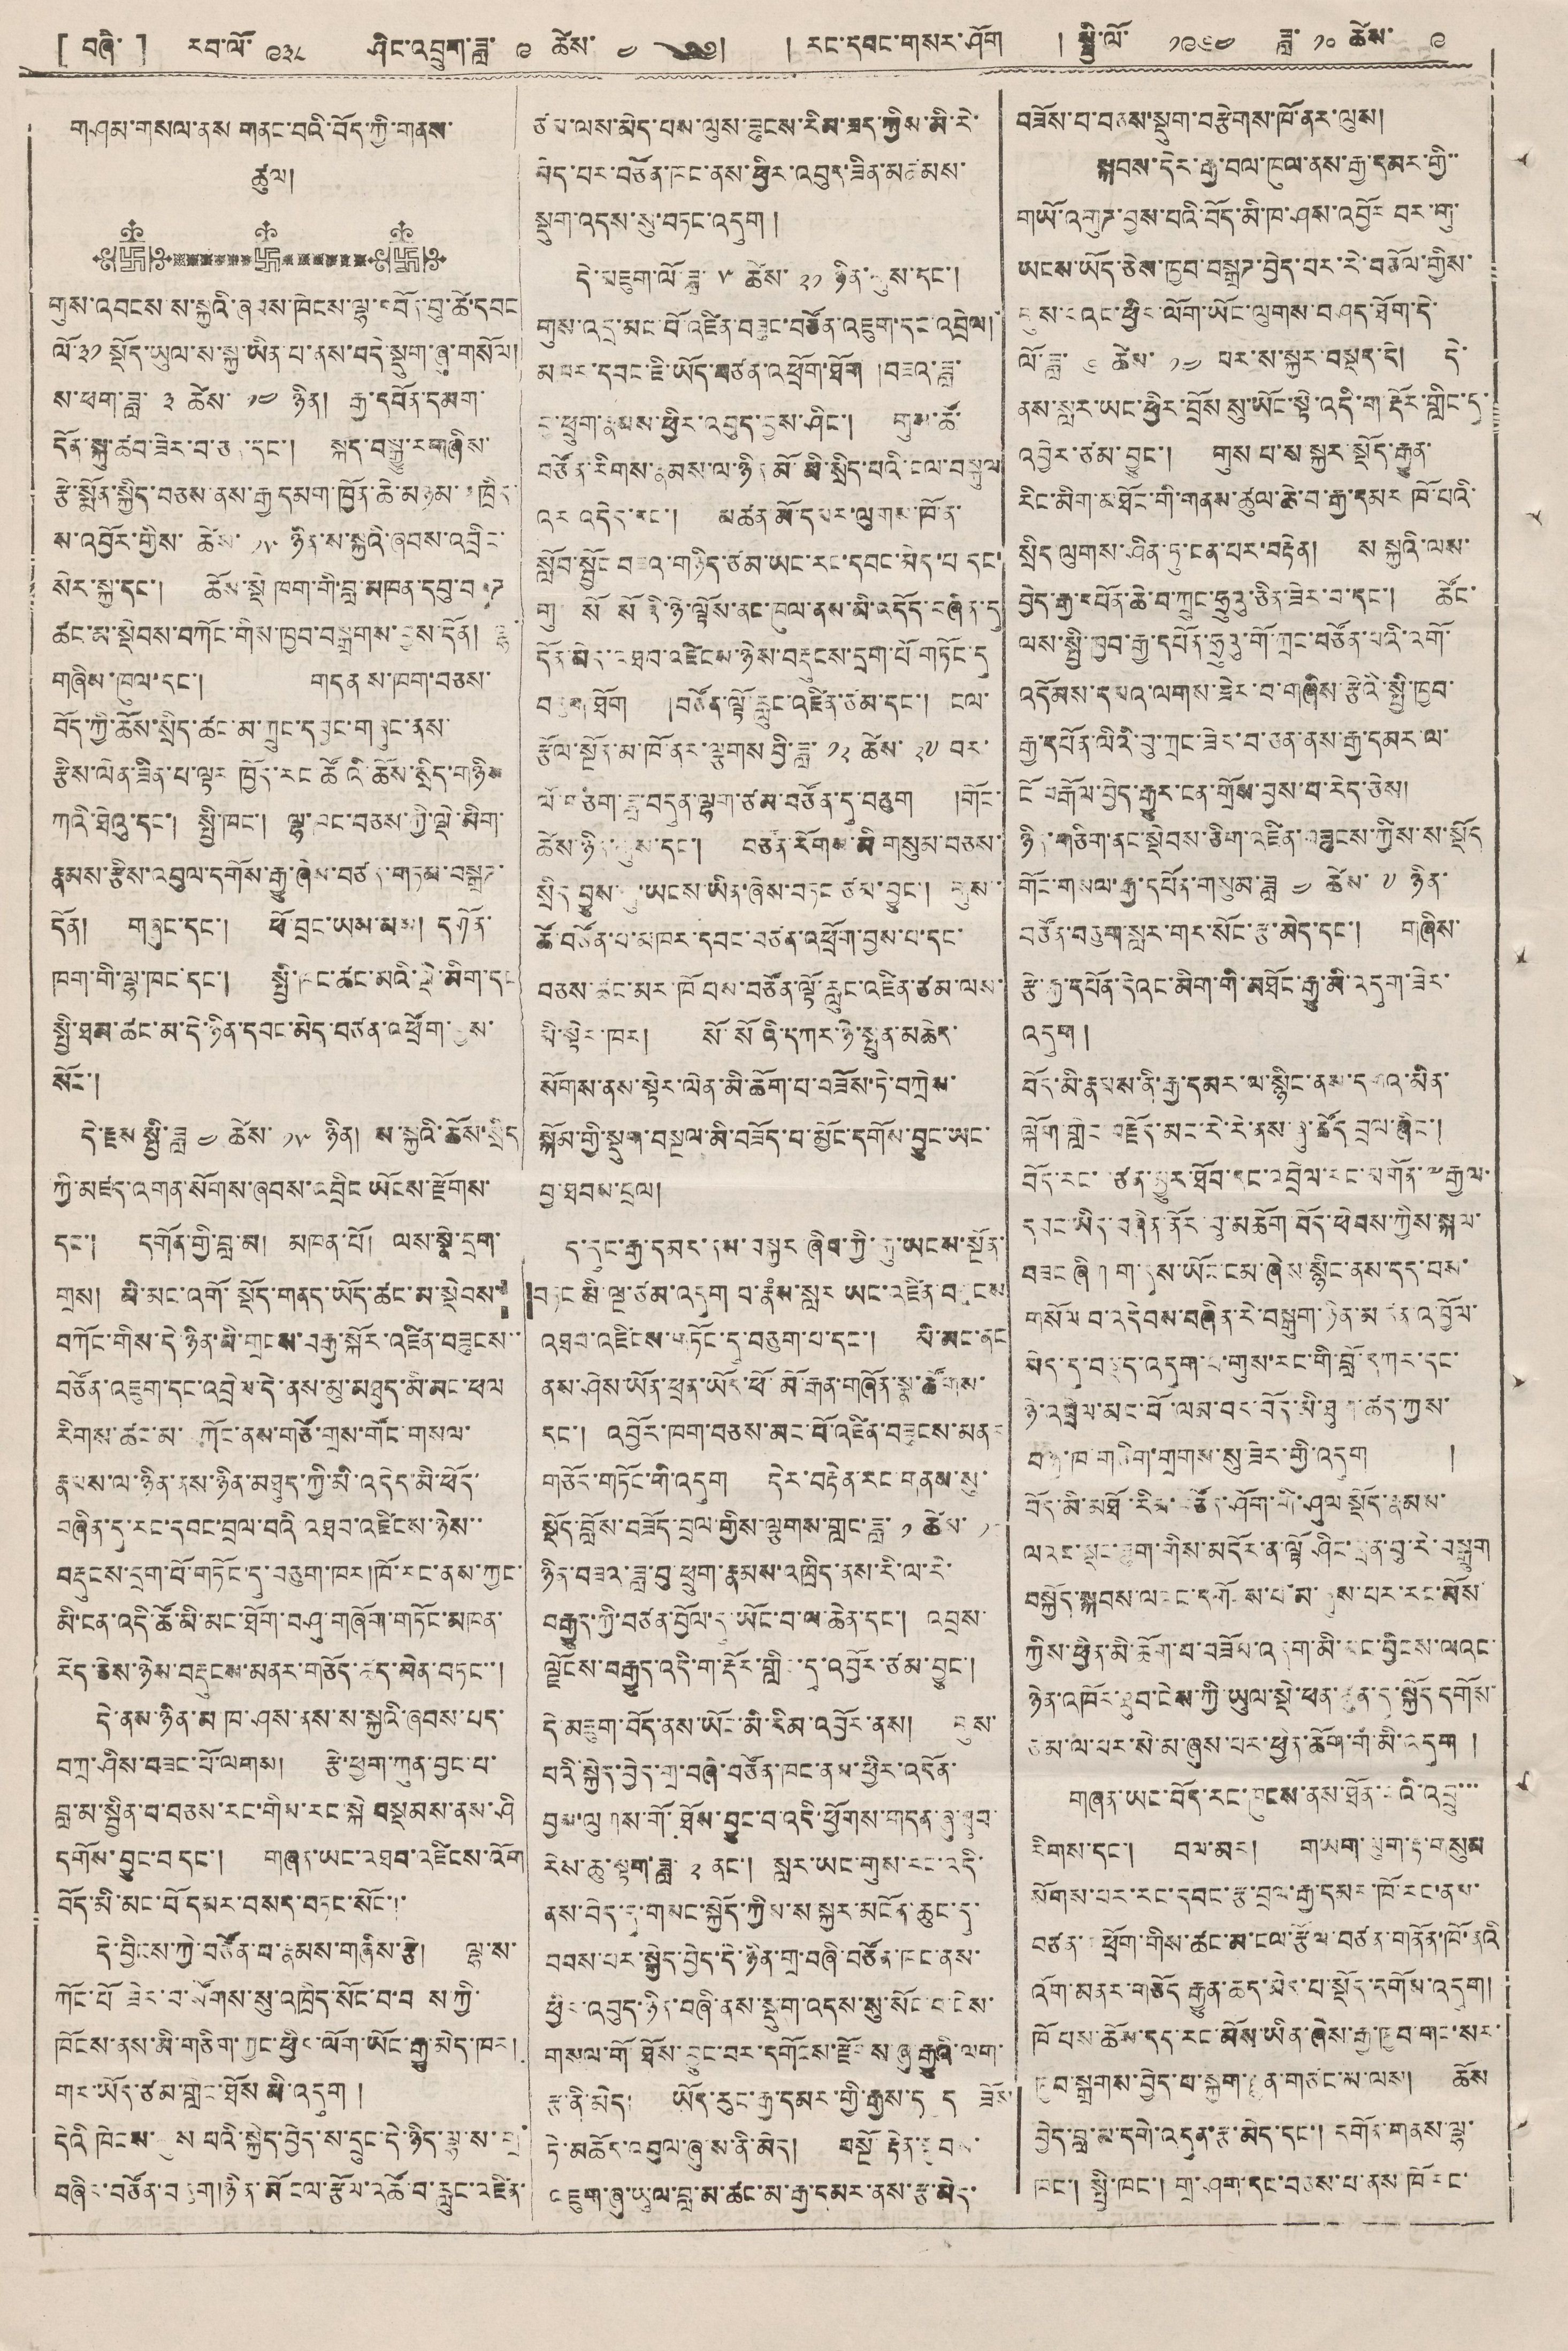[ བཞི་ ] རབ་ལོ་ ༩༣༨ ཤིང་འབྲུག་ཟླ་ ༩ ཚེས་ ༤ ༄༅། ། རང་དབང་གསར་ཤོག །སྤྱི་ལོ་ ༡༩༦༤ ཟླ་ ༡༠ ཚེས་ ༩
གཤམ་གསལ་ནས གནང་བའི་བོད་ཀྱི་གནས་
ཚུལ།
གུས་འབངས ས་སྐྱའི་ཞབས་ཁེངས་ལྷ་བོད་བུ་ཚེ་དབང
ལོ་༣༡སྡོད་ཡུལ་ས་སྐྱ་ཡིན་པ་ནས་བདེ་སྡུག་ཞུ་གསོལ།
ས་ཕག་ཟླ་ ༣ ཚེས་ ༡༤ ཉིན། རྒྱ་དཔོན་དམག་
དོན་སྐུ་ཚབ་ཟེར་བ་ཅད་དང་། སྐད་བསྒྱུ་ར་གཞིས་
རྩེ་སྨོན་སྐྱིད་བཅས་ནས་རྒྱ་དམག་ཁྱོན་ཆེ་མཉམ་་ཁྲིད་
ས་འབྱོར་གྱིས་ཚེས་ ༡༥ ཉིན་ས་སྐྱའི་ཞབས་འབྲིང་
སེར་སྐྱ་དང་། ཆོས་སྡེ ཁག་གི་བླ་མཁན་དབུ་བཞུཊ
ཚང་མ་སྡེབས་བཀོང་གིས་ཁྱབ་བསྒྲགས་བྱས་དོན། ལྷ་
གཞིས་ཁུལ་དང་། གདན ས་ཁག་བཅས་
བོད་ཀྱི་ཆོས་སྲིད་ཚང་མ་གྲུང་དབྱར་གཞུང་ནས་
རྩིས་ལེན་ཟིན་པ་ལྟར ཁྱོད་རང་ཚོའི་ཆོས་སྲིད་གཉིས
ཀའི་ཐེའུ་དང་། སྤྱི་ཁང་། ལྷ་ཁང་བཅས་ཀྱི་ལྡེ་མིག་
རྣམས་རྩིས་འབུལ་དགོས་རྒྱུ་ཞེས་བཙན་གཏམ་བསྒྲཊ་
དོན། གཞུང་དང། ཕོ་བྲང་ཡམ་མས། དགོན་
ཁག་གི་ལྷ་ཁང་དང་། སྤྱི་ཁང་ཚང་མའི་ལྡི་མིག་དང
སྤྱི་ཐམ་ཚང་མ་དེ་ཉིད་དབང་མེད་བཙན་འཕྲོག་བྱས་
སོང་།
དེ་རྗས སྤྱི་ཟླ ༤ ཚེས་ ༡༥ ཉིན། ས་སྐྱའི་ཆོས་སྲིད
ཀྱི་མཛད་འགན་སོགས་ཞབས་འབྲིང ཡོངས་རྫོགས་
དང་། དགོན་གྱི་བླ་མ། མཁན་པོ། ལས་སྣེ་དྲག་
གྲས། མི་མང་འགོ་སྡོད་གནད་ཡོད་ཚང་མ་སྡེབས་
བཀོང་གིས་དེ་ཉིན་མི་གྲངས་བརྒྱ་སྐོར་འཛིན་བཟུངས་་
བཙོན་འཇུག་དང་འབྲེལ་དེ་ནས་མུ་མཐུད་མི་མང་ཕལ
རིགས་ཚང་མ་ ཀོང་ནས་གཙོ་གྲས་གོང་གསལ་
རྣམས་ལ་ཉིན་ནས་ཉིན་མཐུད་ཀྱི་མི་འདེད་མི་ཕོད་
བཞིན་དུ་རང་དབང་བྲལ་བའི་འཐབ་འཛིངས་ཉེས་་
བརྡུངས་དྲག་པོ་གཏོང་དུ་བཅུག་ཁར།ཁོ་རང་ནས་ཀྱང་
མི་ངན་འདི་ཚོ་མི་མང་ཐོག་བཤུ་གཞོག་གཏོང་མཁན་
རེད་ཅེས་ཉེས་བརྡུངས་མནར་གཅོད་ཚད་མེན་བཏང་་།
དེ་ནས་ཉིན་མ་ཁ་ཤས་ནས་ས་སྐྱའི་ཞབས་པད་
བཀྲ་ཤིས་བཟང་པོ་ལགས། རྩེ་ཕྱག་ཀུན་བྱང་པ་
བླ་མ་སྦྱིན་པ་བཅས་རང་གིས་རང་སྐེ བསྡམས་ནས་ཤི
དགོས་བྱུང་བ་དང་། གཞན་ཡང་འཐབ་འཛིངས་འོག
བོད་མི་མང་པོ་དམར་བསད་བཏང་སོང་།་
དེ་བྱིངས་ཀྱི་བཙོན་བ་རྣམས་གཞིས་རྩེ། ལྷ་ས་
ཀོང་པོ ཟེར་བ་སོགས་སུ་འཁྲིད་སོང་བ་བ ས་ཀྱི་
ཁོངས་ནས་མི་གཅིག་ཀྱང་ཕྱིར་ལོག་ཡོང་རྒྱུ་མེད་ཁར།
གར་ཡོད་ཙམ་གླང་ཐོས མི་འདུག །
དེའི ཁེངས་ནུས པའི་སྐྱིད་བྱེད་ས་དྲུང་དེ་ཉིད་ལྷ་ས་གྲ་
བཞིང་བཙོན་བརྩག།།ཉིན་མོ ངལ་རྩོལ་འཚོ་བ་རླང་འཛིན་
ཙམ་ལས་མེད་པས་ལུས་ཟུངས་རིམ་ཟད་ཀྱིས་མི་རེ་
མེད་པར་བཙོན་ཁང་ནས་ཕྱིར་འབུར་ཟིན་མཚམས་
སྡུག་འདས་སུ་བཏང་འདུག །
དེ་མཇུག་ལོ་ཟླ་ ༥ ཚེས་ ༢༡ ཉིན་དུས་དང་།
གུས་འདྲ་མང་པོ་འཛིན་བཟུང་བཙོན་འཇུག་དང་འབྲེལ།
མཁར་དབང་ཇི་ཡོད་བཙན་འཕྲོག་ཐོག །བཟའ་ཟླ་
བུ་ཕྲུག་རྣམས་ཕྱིར་འབུད་བྱས་ཤིང་། གུས་ཚོ་
བཙོན་རིགས་རྣམས་ལ་ཉིན་མོ་མི་སྲིད་པའི་ངལ་བསྐུལ
འར འདེད་རང་། མཚན་མོ་དམར་ལུགས་ཁོ་ན་
སློབ་སྦྱོང་བཟའ་གཉིད་ཙམ་ཡང་རང་དབང་མེད་པ དང་
གུ་ སོ སོའི་ཉི་ལྟོས་ནང་ཁུལ་ནས་མི་འདོད་བཞིན་དུ
དོན་མེད་འཐབ་འཛིངས་ཉེས་བརྡུངས་དྲག་པོ གཏོང་དུ་
བརྩག་ཐོག །བཙོན་ལྟོ་རླུང་འཛིན་ཙམ་དང་། ངལ་
རྩོལ་སྔོན་མ་ཁོ་ནར་ལྕགས བྱི་ཟླ་ ༡༢ ཚེས་ ༢༧ བར་
ལོ་གཅིག་ཟླ་བདུན་ལྷག་ཙམ་བཙོན་དུ་བཅུག །གོང་
ཚེས་ཉིན་གུས་དང་། བཙོན་རོགས་མི་གསུམ་བཅས་
སྲིད བྱུས་གུ་ཡངས་ཡིན་ཞེས་བཏང་ཙམ་བྱུང་། གུས་་
ཚོ་བཙོན་པ་མཁར་དབང་བཙན་འཕྲོག་བྱས་པ་དང་
བཅས་ཚང་མར་ཁོ བས་བཙོན་ལྟོ་རླུང་འཛིན་ཙམ་ལས་
མི་སྟེར་ཁར། སོ་སོའི་དཀར་ཉེ་སྤུན་མཆེད་
སོགས་ནས་སྟེར་ལེན་མི་ཆོག་པ་བཟོས་དེ་བཀྲེས་
སྐོམ་གྱི་སྡུག་བསྔལ་མི་བཟོད་བ་མྱོང་དགོས་བྱུང་ཡང་
བྱ་ཐབས་བྲལ།
ད་དུང་རྒྱ་དམར་ནས་བསྐྱར་ཞིབ་ཀྱི་གུ་ཡངས་སྔོན་
བཏང་མི་ལྔ་ཙམ་འདུག བ་རྣཾས་སླར ཡར་འཛིན་བཟུངས
འཐབ་འཛིངས་གཏོང་དུ་བཅུག་པ་དང་། མི་མང་ནང
ནས་ཤེས་ཡོན་ཕྲན་ཡོར་ཕོ་མོ་རྒན་གཞོན་སྣ་ཚོགས་
དང་། འབྱོར་ཁག་བཅས་མང་པོ་འཛིན་བཟུངས་མནར
གཅོད་གཏོང་གི་འདུག དེར་བརྟེན་རང་གནས་སུ་
སྡོད་སློས་བཟོད་བྲལ་གྱིས་ལྕགས་གླང་ཟླ་ ༡ ཚེས་ ༡༦
ཉིན་བཟའ་ཟླ་བུ ཕྲུག་རྣམས་འཁྲིད་ནས་རི་ལ་རི་
བརྒྱུད་ཀྱི་བཙན་བྱོལ་དུ་ཡོང་བ་ལ་ཆེན་དང་། འབྲས་
ལྗོངས་བརྒྱུད་འདི་ག་རྡོར་གླིང་དུ་འབྱོར་ཙམ་བྱུང་།
དེ་མཇུག་བོད་ནས་ཡོང་མི་རིམ་འབྱོར་ནས། གུས་
པའི་སྐྱིད་བྱེད་གྲ་བཞི་བཙོན་ཁང་ནས་ཕྱིར་འདོན་
བྱས་ལུགས་ཐོས་བྱུང་བ་འདི་ཕྱོགས་གདན་ཞུ་ཐུབ་
རེས་ཆུ་ལྟག་ཟླ་ ༢ ནང་། སླར་ཡང་གུས་རང་འདི་
ནས་བདེ་དུ་གསར་སྐྱོད་ཀྱིས་ས་སྐྱར་མངོན་ཆུང་དུ་
བབས་པར་སྒྱིད་བྱེད་དེ་ཉིན་གྲ་བཞི་བཙོན་ཁང་ནས་
ཕྱིར་འབུད་ཉིན་བཞི་ནས་སྡུག་འདས་སུ་སོང་བ་ངེས་
གསལ་གོ ཐོས་བྱུང་དགོངས་རྫོགས་ཞུ་རྒྱུའི་ལག་
རྩ་ནི་མེད། ཡོད་རུང་རྒྱ་དམར་གྱི་རྒྱས་དཔྱད ཟོས
ཏེ་མཆོད་འབུལ་ཞུ་ས་ནི་མེད། བསྔོ་རྟེན་སྐྱབས་
འཇུག་ཞུ་ཡུལ་བླ་མ་ཚང་མ་རྒྱ་དམར་ནས་རྩ་མེད་
བཟོས་པ་བཅས་སྡུག་བརྩེགས་ཁོ་ནར་ལུས།
སྐབས་དེར་རྒྱ་བལ་ཁུལ་ནས་རྒྱ་དམར་གྱི་་
གཡོ་འགུཊ་བྱས་པའི་བོད་མི་ཁ་ཤས་འབྱོར བར་གུ་
ཡངས་ཡོད་ཅེས་ཁྱབ་བསྒྲཊ་བྱེད་པར་རེ་བཅོལ་གྱིས་
གུས་པའང་ཕྱིད་ལོག་ཡོང་ལུགས་བཤད་ཐོག་དེ་
ལོ་ཟླ་ ༦ ཚེས་ ༡༤ པར་སྐྱར་བསྡད་དེ། དེ་
ནས་སླར་ཡང་ཕྱིར་བྲོས སུ་ཡོང་སྟེ་འདི་ག་རྡོར་གླིང་དུ་
འབྱེར་ཙམ་བྱུང་། གུས པ་ས སྐྱར་སྡོད་རྒྱུན་
རིང་མིག་མཐོང་གི་གནས་ཚུལ་ཆེ་བ་རྒྱ་དམར ཁོ་པའི་
སྲིད ལུགས་ཤིན་ཏུ་ངན་པར་བརྟེན། ས སྐྱའི་ལས་
བྱེད་རྒྱ་དཔོན་ཆེ་བ་ཀྲུང་ཧྲུའུ་ཅིན་ཟེར་བ་དང་། ཚོང་
ལས་སྤྱི་ཁྱབ་རྒྱ་དཔོན་ཧྲུའུ་གོ་ཀྲང་བཙོན་པའི་འགོ་
འདོམས་དམའ་ལགས་ཟེར་བ་གཞིས་རྩེའི་སྤྱི་ཁྱབ་
རྒྱ་དཔོན་ལིའི་བུ་ཀྲང་ཟེར་བ་ཅན་ནས་རྒྱ་དམར་ལ་
ངོ བརྒོལ་བྱེད་རྒྱུར་ངན་གྲོས་བྱས་པ་རེད་ཅེས།
ཉིན་གཅིག་ནང་སྡེབས་ཅིག་འཛིན་བཟུངས་ཀྱིས་ས་སྡོད
གོང་གསལ་རྒྱ་དཔོན་གསུམ་ཟླ་ ༤ ཚེས་ ༧ ཉིན་
བཙོན་བཅུག་སླར་གར་སོང་རྩ་མེད་དང་། གཞིས་
རྩེ་རྒྱ་དཔོན་དེའང་མིག་གི་མཐོང་རྒྱུ་མི་འདུག་ཟེར་
འདུག།
བོད་མི་རྣམས་ནི་རྒྱ་དམར་ལ་སྙིང་ནས་དགའ་མིན་
ལྐོག་གླིང བརྗོད་མང་རེརེ་ནས་ཞུ་ཚོད བྲལ་ཞིང་།
བོད་རང་བཙན་མྱུར་ཐོབ་དང་འབྲེལ་རང་མགོན་༸རྒྱལ་
དབང་མིན་བཞིན་ནོར་བུ་མཆོག་བོད་ཕེབས་ཀྱིས་སྐལ་
བཟང ཞིག ག་དུས་ཡོང་ངམ་ཞེས་སྙིང་ནས་དད་པས་
གསོལ བ་འདེབས་བཞིན་རེ་བསྒུག་ཉིན་མཚན་འབྱོལ་
མེད་དུ་བསྡད་འདུག་པ་གུས་རང་གི་བློ་དཀར་དང་
ཉེ་འབྲེལ་མང་པོ་ལམ་བར་བོད་མི་ཐུག་ཚད་ཀྱིས་
བ ཁ་གཅིག་གྲགས་སུ་ཟེར་གྱི་འདུག །
བོད་མི་མཐོ་རིམ་བཙོན་ཤོག་གི་ཤུལ སྡོད་རྣམས་
ལའང་སྡང་ཟུག་གིས་མདོར་ན་ལྟོ ཤིང་དྲན་བྱ་རེ་བསྒུག
བསྐྱོད་སྐབས་ལའང་དགོངས་པ་མ་ཞུས་པར་རང་མོས་
ཀྱིས་ཕྱིན་མི་ཆོག་པ་བཟོམ་འདུག་མི་རང་བྱིངས་ལའང་
ཉེན་འཁོར་ཐུབ་ངེས་ཀྱི་ཡུལ་སྡེ་ཕན་ཚུན་དུ་སྐྱོད དགོས་
ཙམ་ལ་པར་སེ་མ་ཞུས་པར་ཕྱིན་ཆོག་ག་མི་འདུག །
གཞན་ཡང་བོད་རང་ཁུངས་ནས་ཐོན་པའི་འབྲུ་་་
རིགས་དང་། བལ་མར། གཡག་ལུག་རྟ་གསུམ
སོགས་པར་རང་དབང་རྩ་བྲལ་རྒྱ་དམར་ཁོ་རང་ནས་
བཙན་འཕྲོག་གིས་ཚང་མ་ངལ་རྩོལ་བཙན་གནོན་ཁོ་ནའི
འོག་མནར་གཅོད རྒྱུན་ཆད་མེད་པ་སྡོད་དགོས་འདུག།
ཁོ པས་ཆོས་དད་རང་མོས་ཡིན་རྒྱ་ཁྱབ་གང་སར་
ཁྱབ་སྒྲགས་བྱེད་པ་སྐྱག་རྫུན་གཙང་མ་ལས། ཆོས
བྱེད་བླ་མ་དགེ་འདུན་རྩ་མེད་དང་། དགོན་གནས་ལྷ་
ཁང་། སྤྱི་ཁང་། གྲ་ཤག་དང་བཅས་པ་ནས་ཁོ རང་
